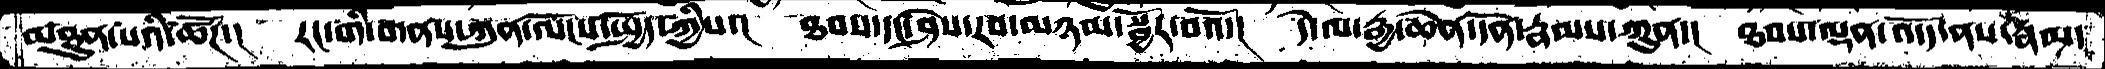མཐུན་པའི་ཚོཌ་།  རང་གི་གནས་ཀུན་ལོངས་སྤྱོད་ཀྱིས་།   ཐབས་དང་ཤེས་རབ་མཉམ་སྦྱོར་བའོ་།  དེ་ལ་རྒྱ་ཆེན་དོན་རྣམས་ཀུན་།  ཐབས་ལྡན་འདོད་ནས་རྣམ་
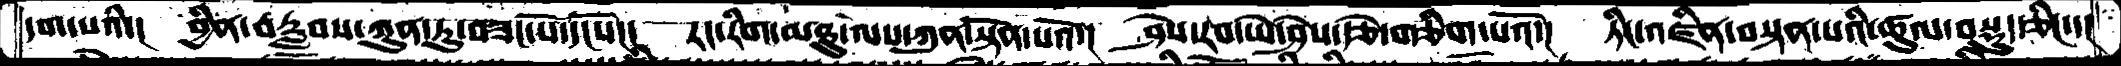དག་པའི་།   བྱིན་བརླབས་ཀུན་ཏུ་བཟང་པོ་དངོས་།  རང་རིག་མཐུ་ལས་ཀུན་སྟོན་པའོ་།  ཤེས་རབ་ཡེ་ཤེས་རྩེ་གཅིག་པའོ་།  ཏིང་འཛིན་བསྟན་པའི་ཚུལ་བསྡུད་ཅིང་་།
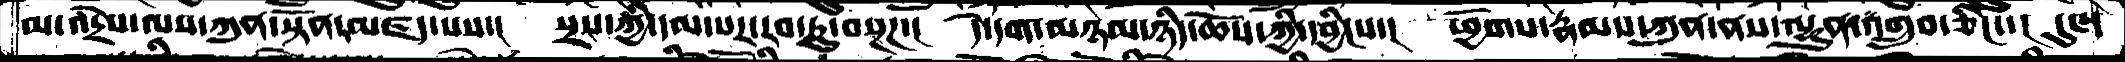མ་འདྲེས་ལས་ཀུན་སྟོན་མཛད་པས་།   སྲས་ཀྱི་དམ་པར་རབ་ཏུ་བསྔཌ་།  དེ་དག་མཉམ་ཉིད་ཆོས་ཀྱི་དབྱིངས་།  ཕྱོགས་རྣམས་ཀུན་ནས་ལྷུན་འགྲུབ་ཅིང་་།  དུས་
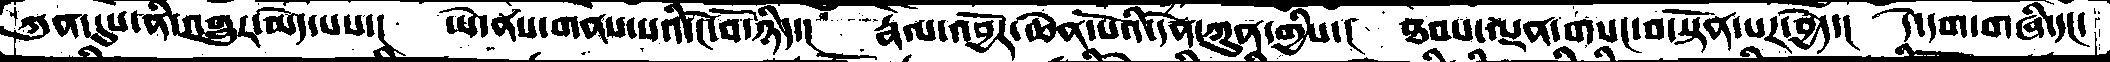ཀུན་དུས་ནི་འགྱུར་མེད་པས་།  ཡེ་ནས་གནས་པའི་ངོ་བོ་ཉིད་།  རྣལ་འབྱོར་ཆེན་པོའི་དོན་ཀུན་གྱིས་།  ཐབས་ལྡན་གསང་བ་སྟོན་པར་བྱེད་།  དེ་དག་གཞི་དང་
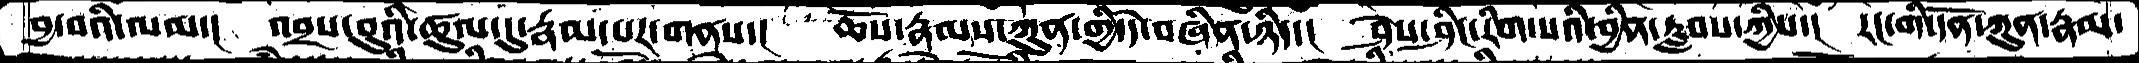བྱ་བའི་ལམ་།  འབྲས་བུའི་ཚུལ་དུ་རྣམ་པར་གནས་།  ཆོས་རྣམས་ཀུན་གྱི་དེ་བཞིན་ཉིད་།  ཤེས་ཤིང་རིག་པའི་བྱིན་རླབས་ཀྱིས་།  རང་གི་དོན་ཀུན་རྣམ་
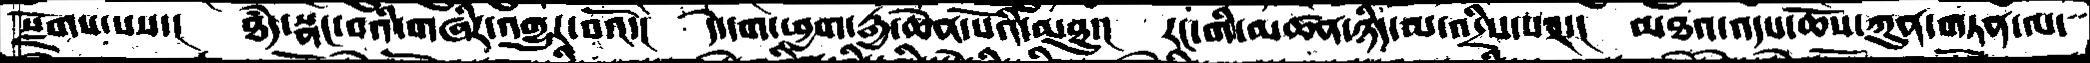སྫོགས་པས་།  ཐཾད་སྣང་བའི་གཞིར་འགྱུར་བའོ་།   དེདག་ཕྱག་རྒྱ་ཆེན་པོའི་མཐུ་།  རང་གི་མཚན་ཉིད་མ་འདྲིས་པར་།  མཐའ་འདས་ཆོས་ཀུན་གཏན་ལ་
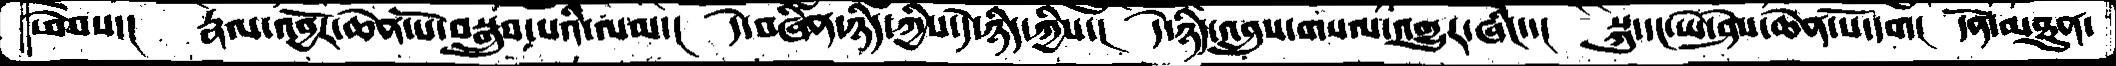ཕེབས་།  རྣལ་འབྱོར་ཆེན་པོ་བསྒྲུབ་པའི་ལམ་།  དེ་བཞིན་ཉིད་ཀྱིས་དེ་ཉིད་ཀྱིས་།  དེ་ཉིད་འབྲུས་གསལ་འགྱུར་ཞིང་་།  སྐུ་དང་ཡེ་ཤེས་ཆེན་པོ་དག།  དོན་མཐུན་
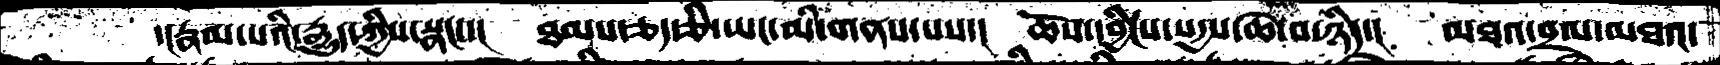་།རྣམ་པའི་རྒྱུད་ཀྱིས་སྣང་་།  ཐམས་ཅད་ཅི་ཡང་མི་གནས་པས་།  ཆོས་དབྱིངས་སདྱས་ཆེ་བ་ཉིད་།  མཐའ་བྲལ་མཐའ་
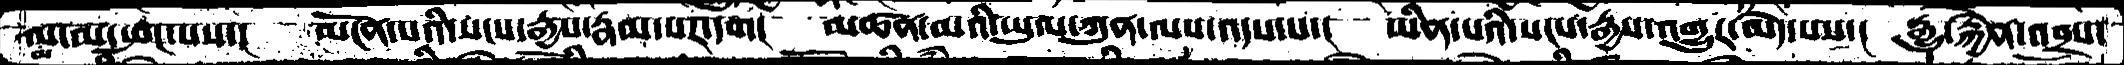ལ་ལ་སྤང་པས་། མངོན་པའི་སངས་རྒྱས་རྣམ་པར་དག། མཚན་མའི་ཡུལ་ཀུན་ལས་འདས་པ་། ཡིན་པའི་སངས་རྒྱས་འགྱུར་མེད་པས་། རྒྱུ་རྐྱེན་འབྲས་
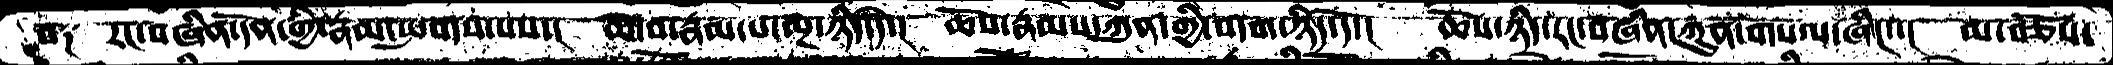བ༑ རང་བཞིན་དོན་གྱི་རྣམ་སྤགས་པས་། ཆེ་བ་རྣམ་པ་ལྔ་ཉིད་དེ་། ཆོས་རྣམས་ཀུན་གྱི་བདག་ཉིད་དོ་། ཆོས་ཉིད་རང་བཞིན་ཀུན་གསལ་ཞིང་་། མ་བཅོས་
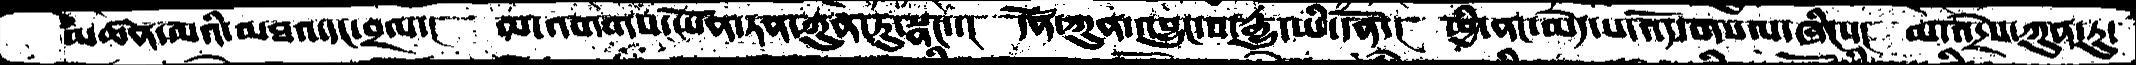མཚན་མའི་མཐའ་དང་བྲལ་།  མ་འགགས་ཡོན་ཏན་ཀུན་ཏུ་སྣང་་།  དོན་ཀུན་འབྱུང་བ་རྒྱུ་ཡི་དོན་།  ཕྱི་ནང་མེད་པ་འོད་གསལ་ཞིང་་།  མ་འདྲེས་ཀུན་ཏུ་
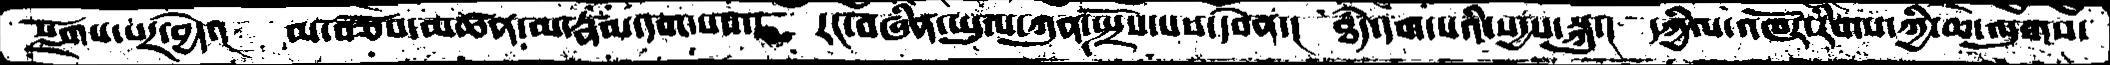སྫོགས་པར་བྱེད་།  མ་བཅོས་མཚན་མ་རྣམ་དག་པས་།  རང་བཞིན་ཡུལ་ཀུན་སྤྲོས་པས་དབེན་།  ཐཾད་དག་པའི་སདྱས་སྐུ་།  དཀྱིལ་འཁོར་རིགས་ཀྱི་ཆ་ལུགས་
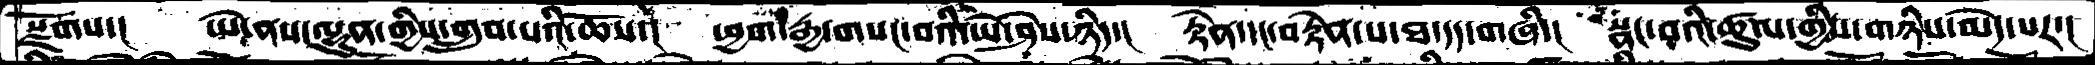སྫོགས་།  ཡེ་ནས་ལྷུན་གྱིས་གྲུབ་པའི་ཆོས་།  ཕྱག་རྒྱ་གསང་བའི་ཡེ་ཤེས་ཉིད་།  རྟེན་དང་བརྟེན་པ་ཐ་དད་གཞི་།  སྣང་བའི་ཚུལ་གྱིས་གཉིས་མེད་པར་།
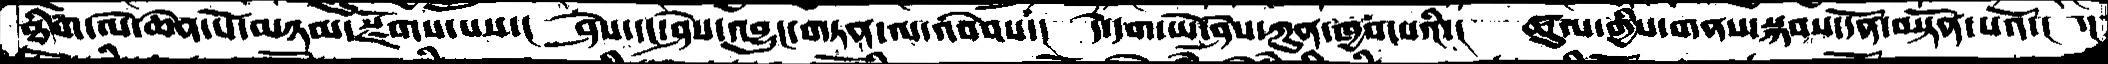ཐིག་ལེ་ཆེན་པོ་མཉམ་སྫོགས་པས་།  ཤེས་དང་ཤེས་འབྱུང་གཏན་ལ་འབེབས་།  དེ་དག་ཡེ་ཤེས་ཀུན་ཁྱབ་པའི་།  ཚུལ་གྱིས་གནས་སྐབས་དོན་བསྟོན་པའོ་།  ་།
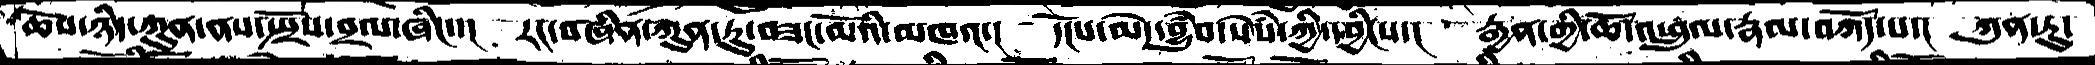ཆོས་ཉིད་ཀུན་ནས་སྤྲོས་བྲལ་ཞིང་་།  རང་བཞིན་ཀུན་ཏུ་བཟང་མོའི་མཁའ་།  དངོས་མེད་བྱུཾབ་སེསཾ་ཀྱི་དབྱིངས་།   རྒྱན་གྱི་ཆོ་འཕྲུལ་རྣམ་བཀོད་པ་། ཀུན་ཏུ་
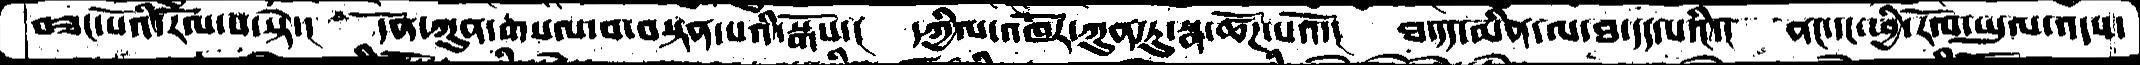བཟང་པོའི་རོལ་པ་སྟེ་།  དོན་ཀུན་གསལ་བ་བསྟན་པའི་སྒོས་།  དཀྱིལ་འཁོར་ཀུན་ཏུ་སྣ་ཚོཌ་པའོ་།  ཐ་དད་མིན་ལ་ཐ་དད་པའི་།  ནང་དང་ཕྱི་རོལ་ཡུལ་འདས་
